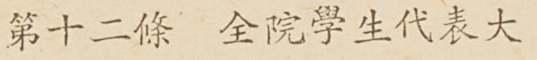第十二條 全院學生代表大
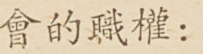會的職權：
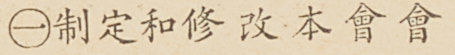㊀制訂和修改本會會
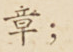章；
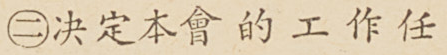㊁決定本會的工作任
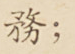務；
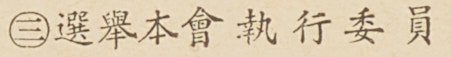㊂選舉本會執行委員
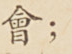會；
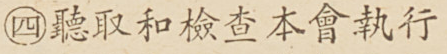㊃聽取和檢查本會執行
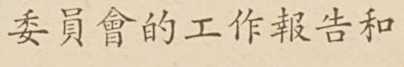委員會的工作報告和
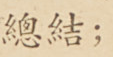總結；
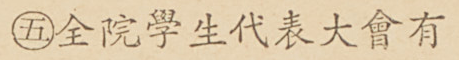㊄全院學生代表大會有
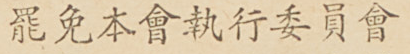罷免本會執行委員會
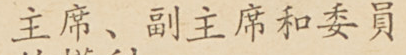主席、副主席和委員
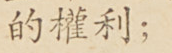的權利；
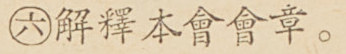㊅解釋本會會章。
